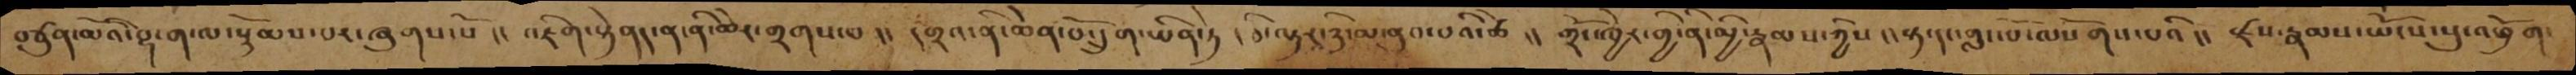བཙུན་མོའི་བྷ་ག་ལ་སྙོམས་པར་ཞུགས་སོ །། འཇིག་རྟེནད་ན་ནི་ཆེར་གྲགས་པ །། དགྲའ་ནི་ཆེན་པོ་དྲུག་ཡིན་ཏེ །ཅི་ལྟར་ཉི་མ་ནུབ་པའི་ཚེ །། གྲོང་ཁྱེར་གྱི་ནི་མྱི་རྣམས་ཀྱིས །།རྟ་དང་གླང་པོ་ལས་གོས་པའི །། རྫས་རྣམས་ཡོངས་སུ་འཕྲོག་
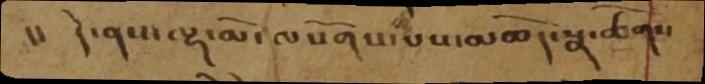།།   དེ་ནས་ལྷ་མོ་ལསོགས་པས་མཆོད་སྣ་ཚོགས
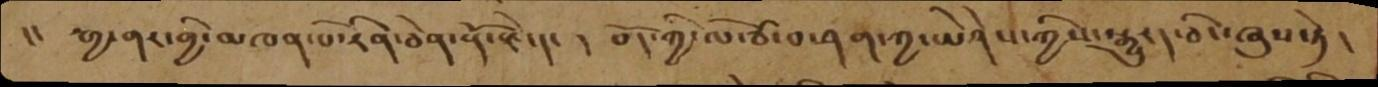།།  རྒྱ་གར་གྱི་མཁན་པོ་རིན་ཅེན་རྡོ་རྗེ་དང ། བོད་ཀྱི་ལོ་ཙ་བ་ཤག་ཀྱ་ཡེཤེས་ཀྱིས་སྒྱུརད་ཅིང་ཞུས་ཏེ།
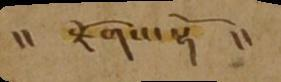།།   རྫོགས་སྷོ།།
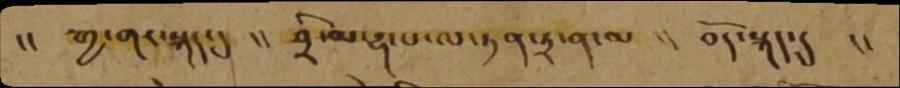།།  རྒྱ་གར་སྐད་དུ  །།  ཤྲི་མ་ཧ་པ་ལ་ཏན་ཏྲ་ན་མ  །།  བོད་སྐད་དུ   །།
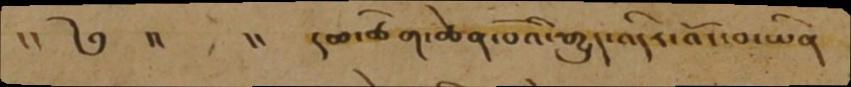།།    ༄   །།   །།  དམ་ཚིག་ཆེན་པོའི་རྒྱུད་འདིར་འོང་བ་ཡིན
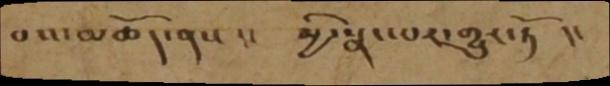བས་མཆོད་ནས །།  མྱི་སྣང་བར་གྱུར་ཏོ །།
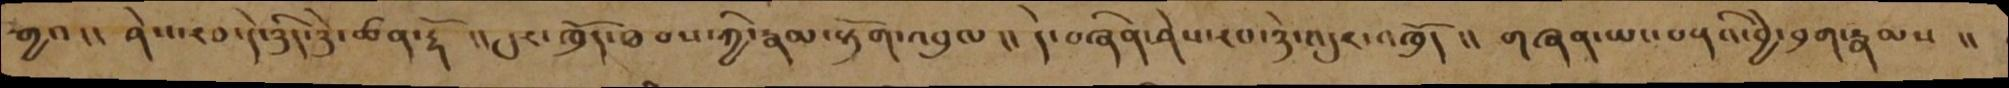གྱབ །། ཤེས་རབ་དེ་ཉིད་ཉེ་ཚན་དྷོ །། དུར་ཁྲོད་ཐབས་ཀྱི་རྣམ་རྟོག་འབུལ །། དེ་བཞིན་ཤེས་རབ་ཉེ་འདུར་འཁྲོད །། གཞན་ཡང་ཅནའི་བྱེ་བྲག་རྣམས །།
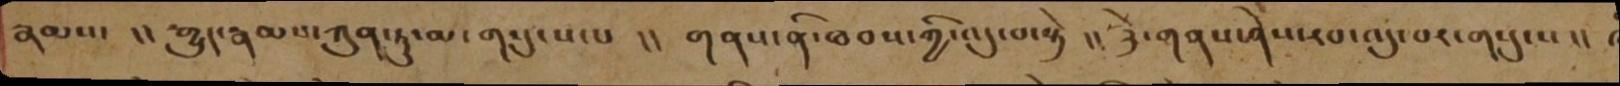རྣམས་ །། རྒྱུད་རྣམས་ཀུན་ཏུ་མ་གསུངས་པ །། གནས་ནི་ཐབས་ཀྱི་འདུ་བ་སྟེ །། ཉེ་གནས་ཤེས་རབ་འདུ་བར་གསུངས །།
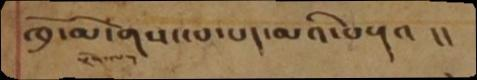ཁྲོ་མོ་གསང་པ་པད་མའི་བརྡའ །།
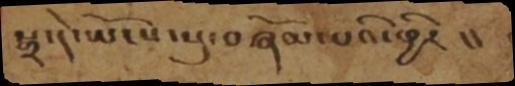སྒྲ་དེ་ཡོངས་སུ་བཞོམ་པའི་ཕྱིར །།
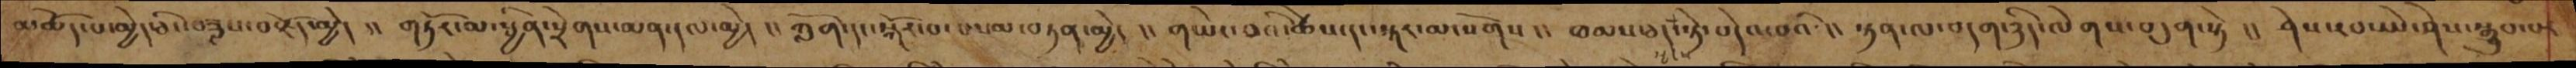མཆོད་པ་མྱེད་ཅིང་བཟླས་བརྗོད་མྱེད །། གཏོར་མ་སྦྱིན་སྲེགས་མན་དལ་མྱེད །། ཀློག་དང་སྐོར་བ་བསམ་གཏན་མྱེད །། གཡེང་བའི་ཚེས་དང་སྐར་མ་སོགས །། ཐམས་ཅད་སྤངས་སྟེ་བདེའ་བའི་ །། སྟན་ལ་བདག་ཉིད་ལེགས་བདུན་སྟེ །། ཤེས་རབ་ཡེ་ཤེས་སྒྲུབ་པར
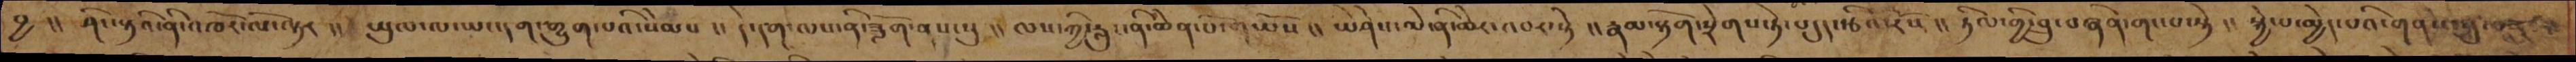བྱ །། ཤིང་རྟའི་ནི་འཁོར་ལོ་ལྟར །། ཡུལ་ལ་ཡང་དག་རྒྱུག་པའི་སེམས །། དེ་དག་ལས་ནི་ཟློག་ནས་སུ །། ལས་ཀྱི་རླུང་ནི་ཆེན་པོ་གཡོས །། ཡེ་ཤེས་མེ་ནི་ཆེར་འབར་སྟེ །། རྣམ་རྟོག་སྲེགས་ཏེ་བདུད་རྩི་རོས །། ཏིལ་གྱི་བྲུ་བཞིན་གང་པ་སྟེ །། སྐྱེ་པ་མྱེད་པའི་གནས་སུ་བསྡུའ་
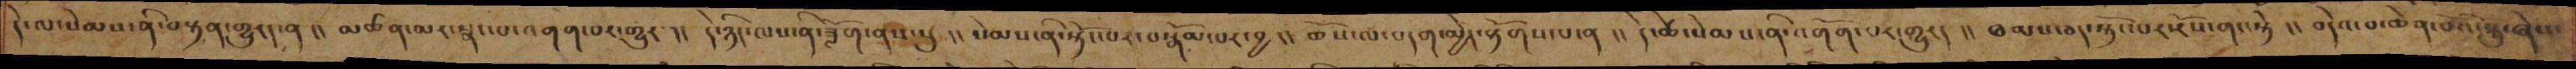དེ་ལ་སེམས་ནི་བསྟན་གྱུརད་ན།། མཚན་མར་སྣང་པ་འགག་པར་གྱུར།། དེ་ཉིད་ལས་ནི་ཟློག་ནས་སུ།། སེམས་ནི་སྟོང་པར་བསྒོམ་པར་བྱ།། ཆོས་ལ་བདག་མྱེད་རྟོགས་པ་ན།། དེ་ཚེ་སེམས་ནི་འགོག་པར་གྱུརད།། ཐམས་ཅད་སྟོང་པར་རོས་གང་སྟེ།། བདེའ་བ་ཆེན་པོའི་སྐུ་ཞེས་
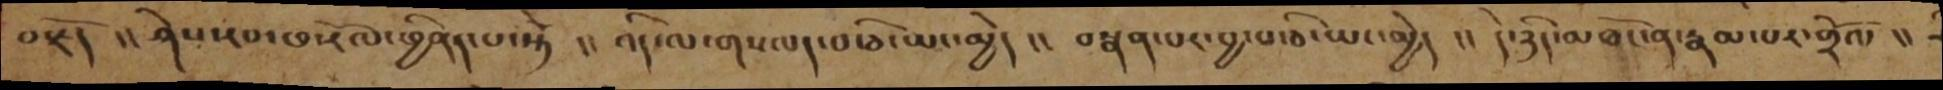བརྗོད །། ཤེས་རབ་ཕ་རོལ་ཕྱིནད་པ་སྟེ །། འདི་ལ་གསལད་བ་ཅི་ཡང་མྱེད །། བསྣམ་པར་བྱ་བ་ཅི་ཡང་མྱེད །། དེ་ཉིད་མཐོང་ན་རྣམ་པར་གྲོལ །།
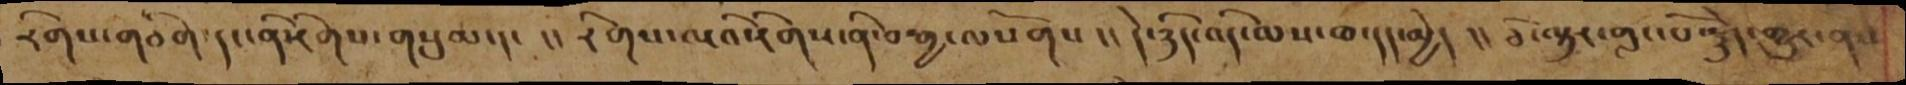རིགས་གཅིག་དང་ནི་རིགས་གསུམ་དང །། རིགས་ལའི་རིགས་ནི་རྒྱ་ལསོགས །། དེ་ཉིད་འདི་ལས་ཐ་དད་མྱེད །། ཅི་ལྟར་གླང་པོ་སྙེད་གྱུར་ནས
